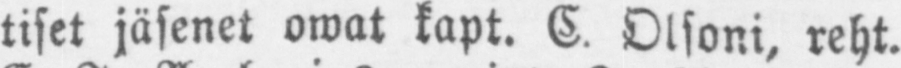tiset jäsenet owat kapt. C. Olsoni, reht.
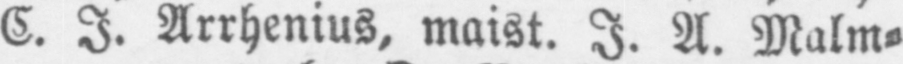C. I. Arrhenius, maist. I. A. Malm-
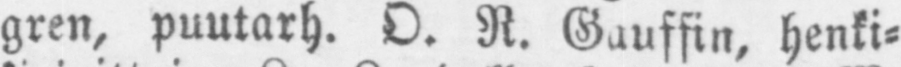gren, puutarh. O. N. Gauffin, henki-
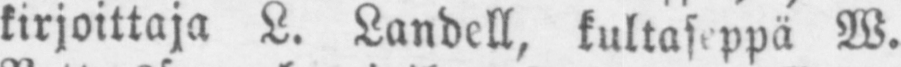kirjoittaja L. Landell, kultaseppä W.
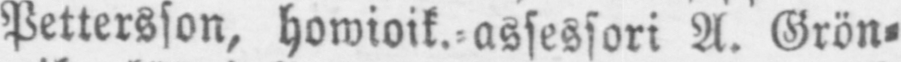Pettersson, howioik.-assessori A. Grön-
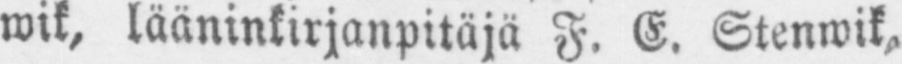wik, lääninkirjanpitäjä F. E. Stenwik,
